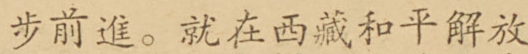步前進。就在西藏和平解放
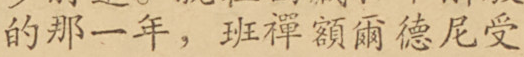的那一年，班禪額爾德尼受
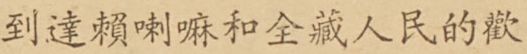到達賴喇嘛和全藏人民的歡
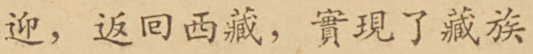迎，返囘西藏，實現了藏族
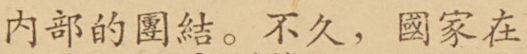內部的團結。不久，國家在
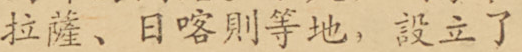拉薩、日喀則等地，設立了
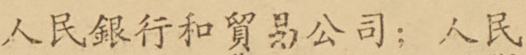人民銀行和貿易公司；人民
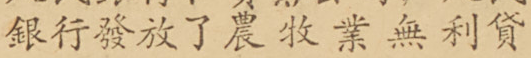銀行發放了農奴業無利貸
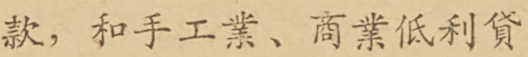款，和手工業、商業低利貸
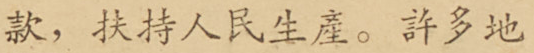款，扶持人民生產。許多地
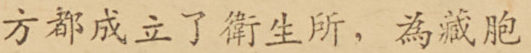方都成立了衛生所，為藏胞
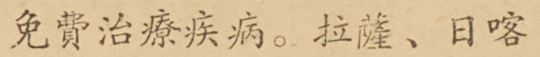免費治療疾病。拉薩、日喀
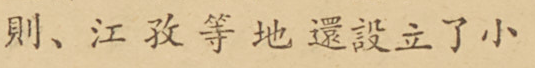則、江孜等地還設立了小
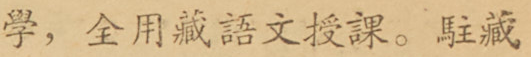學，全用藏語文授課。駐藏
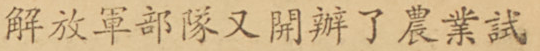解放軍部隊又開辦了農業試
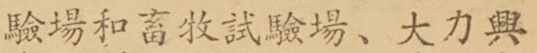驗場和畜牧試驗場、大力興
